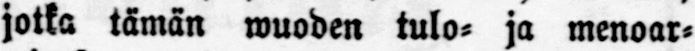jotka tämän wuoden tulo- ja menoar-
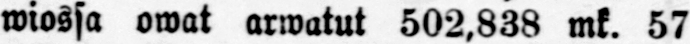wiossa owat arwatut 502,838 mk. 57
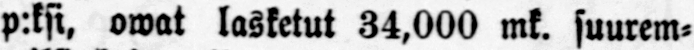p:ksi, owat lasketut 34,000 mk. suurem-
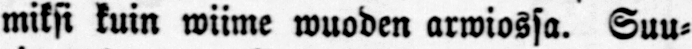miksi kuin wiime wuoden arwiossa. Suu-
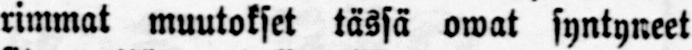rimmat muutokset tässä owat syntyneet
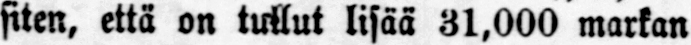siten, että on tullut lisää 31,000 markan
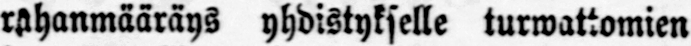rahanmääräys yhdistykselle turwattomien
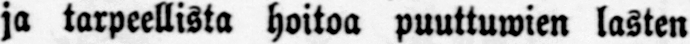ja tarpeellista hoitoa puuttuwien lasten
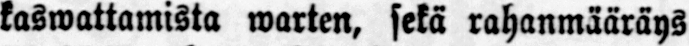kaswattamista warten, sekä rahanmääräys
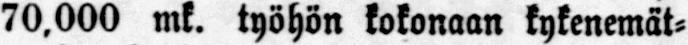70,000 mk. työhön kokonaan kykenemät-
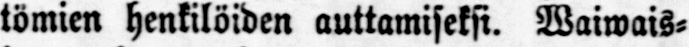tömien henkilöiden auttamiseksi. Waiwais-
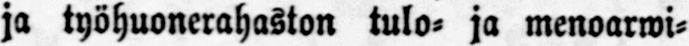ja työhuonerahaston tulo- ja menoarwi-
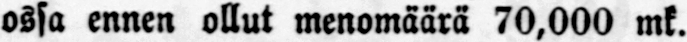ossa ennen ollut menomäärä 70,000 mk.
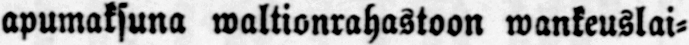apumaksuna waltionrahastoon wankeuslai-
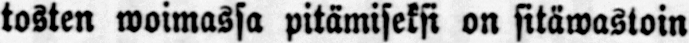tosten woimassa pitämiseksi on sitäwastoin
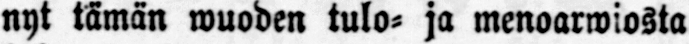nyt tämän wuoden tulo- ja menoarwiosta
